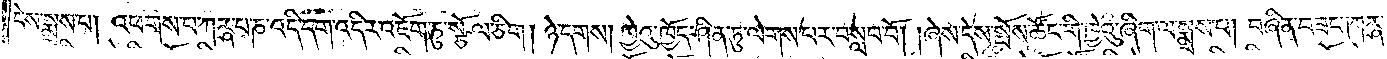དེས་སྨྲས་པ། འཕགས་པ་ཀཪྴ་པ་ཎ་འདི་དག་འདིར་འཇོག་ཏུ་སྩོལ་ཅིག། ཉེ་དགས། ཁྱེའུ་ཁྱོད་ཤིན་ཏུ་ལེགས་པར་བསླབ་བོ། །ཞེས་དེས་སྤོས་ཚོང་གི་ཁྱེའུ་ཞིག་ལ་སྨྲས་པ། བཞིན་བཟང༌། ཀཪྴ་
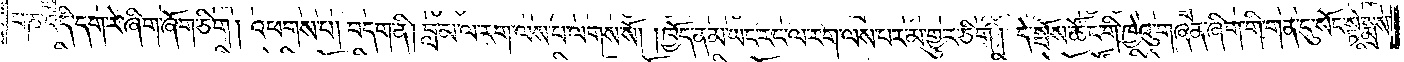པ་ཎ་འདི་དག་རེ་ཞིག་ཞོག་ཅིག། འཕགས་པ། བདག་ནི། བླ་མ་ལ་རག་ལས་པ་ལགས་སོ། །ཁྱོད་ནམ་ཡང་རང་ལ་རག་ལས་པར་མ་གྱུར་ཅིག། དེ་སྤོས་ཚོང་གི་ཁྱེའུ་གཞན་ཞིག་གི་གན་དུ་སོང་སྟེ་སྨྲས།
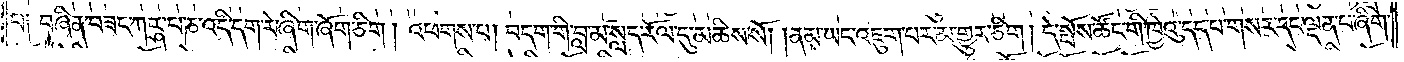པ༑ བཞིན་བཟང་ཀཪྴ་པ་ཎ་འདི་དག་རེ་ཞིག་ཞོག་ཅིག། འཕགས་པ། བདག་གི་བླ་མ་སླད་རོལ་དུ་མཆིས་སོ། །ནམ་ཡང་འཇུག་པར་མ་གྱུར་ཅིག། དེ་སྤོས་ཚོང་གི་ཁྱེའུ་དད་པ་གསར་དང་ལྡན་པ་ཞིག་
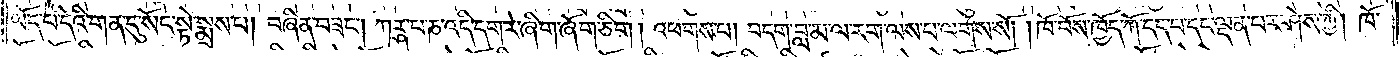ཡོད་པ་དེའི་གན་དུ་སོང་སྟེ་སྨྲས་པ། བཞིན་བཟང༌། ཀཪྴ་པ་ཎ་འདི་དག་རེ་ཞིག་ཞོག་ཅིག། འཕགས་པ། བདག་བླ་མ་ལ་རག་ལས་པ་ལགས་སོ། །ཁོ་བོས་ཁྱོད་ཀོ་དད་པ་དང་ལྡན་པར་ཤེས་ཀྱི། ཁོ་
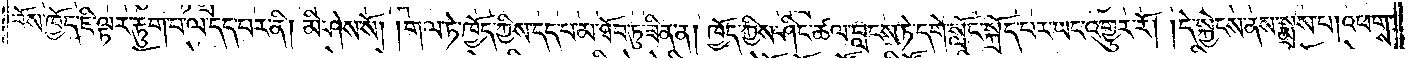བོས་ཁྱོད་ཇི་ལྟར་རྟུག་པ་ལ་དད་པར་ནི། མི་ཤེས་སོ། །གལ་ཏེ་ཁྱོད་ཀྱིས་དད་པ་མ་ཐོབ་ཏུ་ཟིན་ན། ཁྱོད་ཀྱིས་ཤིང་ཚལ་བླངས་ཏེ་དགེ་སློང་སྐྲོད་པར་ཡང་འགྱུར་རོ། །དེ་སྐྱེངས་ནས་སྨྲས་པ། འཕགས་
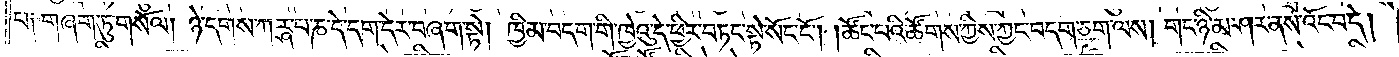པ༑ གཞག་ཏུ་གསོལ། ཉེ་དགས་ཀཪྴ་པ་ཎ་དེ་དག་དེར་བཞག་སྟེ། ཁྱིམ་བདག་གི་ཁྱེའུ་དེ་ཕྱིར་བཏང་སྟེ་སོང་ངོ༌། །ཚོང་པའི་ཚོགས་ཀྱིས་ཀྱང་བདག་ཅག་ལས། གང་ཉི་མ་ཤར་ནས་འོང་བ་དེ།
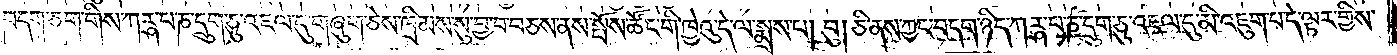བདག་ཅག་གིས་ཀཪྴ་པ་ཎ་དྲུག་ཅུ་འཇལ་དུ་གཞུག་ཅེས་ཁྲིམས་སུ་བྱ་བ་བཅས་ནས་སྤོས་ཚོང་གི་ཁྱེའུ་དེ་ལ་སྨྲས་པ། བུ། ཅི་ནས་ཀྱང་བདག་ཉིད་ཀཪྴ་པ་ཎ་དྲུག་ཅུ་འཇལ་དུ་མི་འཇུག་པ་དེ་ལྟར་གྱིས་
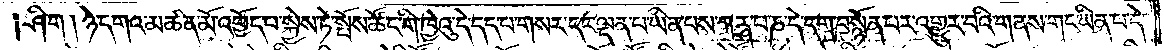ཤིག །ཉེ་དགའ་མཚན་མོ་འགྱོད་པ་སྐྱེས་ཏེ་སྤོས་ཚོང་གི་ཁྱེའུ་དེ་དད་པ་གསར་དང་ལྡན་པ་ཡིན་པས་ཀཪྴ་པ་ཎ་དེ་དག་བསྙོན་པར་འགྱུར་བའི་གནས་གང་ཡིན་པ་དེ་
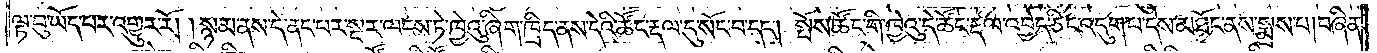ལྟ་བུ་ཡོད་པར་འགྱུར་རོ། །སྙམ་ནས་དེ་ནང་པར་སྔར་ལངས་ཏེ་ཁྱེའུ་ཞིག་ཁྲིད་ནས་དེའི་ཚོང་རྡལ་དུ་སོང་བ་དང༌། སྤོས་ཚོང་གི་ཁྱེའུ་དེ་ཚོང་རྡལ་འབྱེད་ཅིང་འདུག་པ་དེས་མཐོང་ནས་སྨྲས་པ། བཞིན་
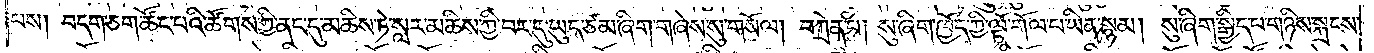པས། བདག་ཅག་ཚོང་པའི་ཚོགས་ཀྱི་ནང་དུ་མཆིས་ཏེ་སླར་མཆིས་ཀྱི་བར་དུ་ཡུད་ཙམ་ཞིག་གཞེས་སུ་གསོལ། བཀྲེན་པ། སུ་ཞིག་ཁྱོད་ཀྱི་ལྟོ་གོལ་བ་ཡིན་སྙམ། སུ་ཞིག་སྒྱིད་པ་གཉིས་སྐྲངས་
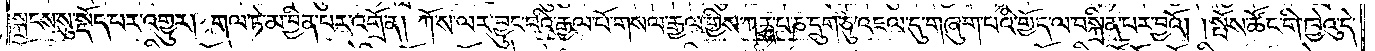སྐྲངས་སུ་སྡོད་པར་འགྱུར། གལ་ཏེ་མ་བྱིན་པར་འགྲོ་ན། ཀོ་ས་ལར་བྱུང་བའི་རྒྱལ་པོ་གསལ་རྒྱལ་གྱིས་ཀཪྴ་པ་ཎ་དྲུག་ཅུ་འཇལ་དུ་གཞུག་པའི་གྱོད་ལ་བསྐྲིན་པར་བྱའོ། །སྤོས་ཚོང་གི་ཁྱེའུ་དེ་
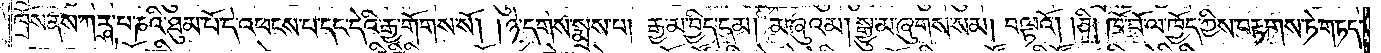ཁྲོས་ནས་ཀཪྴ་པ་ཎའི་ཐུམ་པོ་དེ་འཕངས་པ་དང་དེའི་རྒྱ་གོགས་སོ། །ཉེ་དགས་སྨྲས་པ། རྒྱ་མ་བྱིད་དམ། མ་ཞུའམ། སྒྱུ་མ་ཞུགས་སམ། བལྟའོ། །ཅི། ཁོ་བོ་ལ་ཁྱོད་ཀྱིས་བརྟགས་ཏེ་གཏད་
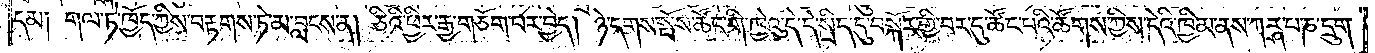དམ༏ གལ་ཏེ་ཁྱོད་ཀྱིས་བརྟགས་ཏེ་མ་བླངས་ན། ཅིའི་ཕྱིར་རྒྱ་གཅོག་པར་བྱེད། ཉེ་དགས་སྤོས་ཚོང་གི་ཁྱེའུ་དེ་དེ་སྲིད་དུ་བསྐོར་གྱི་བར་དུ་ཚོང་པའི་ཚོགས་ཀྱིས་དེའི་ཁྱིམ་ནས་ཀཪྴ་པ་ཎ་དྲུག་
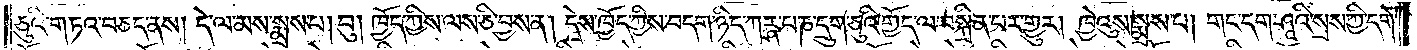ཅུའི་གཏའ་བཅད་ནས། དེ་ལ་མས་སྨྲས་པ། བུ། ཁྱོད་ཀྱིས་ལས་ཅི་བྱས་ན། དེས་ཁྱོད་ཀྱིས་བདག་ཉིད་ཀཪྴ་པ་ཎ་དྲུག་ཅུའི་གྱོད་ལ་བསྐྲིན་པར་གྱུར། ཁྱེའུས་སྨྲས་པ། གང་དག་ཤཱའི་སྲས་ཀྱི་དགེ་
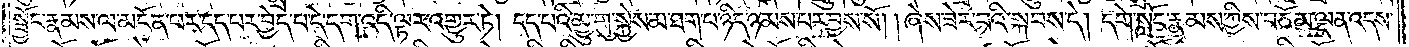སྦྱོང་རྣམས་ལ་མངོན་པར་དད་པར་བྱེད་པ་དེ་དག་འདི་ལྟར་འགྱུར་ཏེ། དད་པའི་མྱུ་གུ་སྐྱེས་མ་ཐག་པ་ཉིད་ཉམས་པར་བྱས་སོ། །ཞེས་ཟེར་བའི་སྐབས་དེ། དགེ་སློང་རྣམས་ཀྱིས་བཅོམ་ལྡན་འདས་
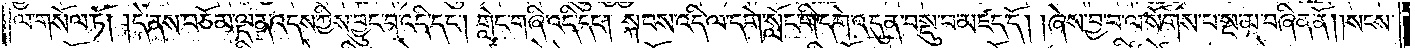ལ་གསོལ་ཏོ། །དེ་ནས་བཅོམ་ལྡན་འདས་ཀྱིས་བྱུང་བ་འདི་དང༌། གླེང་གཞི་འདི་དང༌། སྐབས་འདི་ལ་དགེ་སློང་གི་དགེ་འདུན་བསྡུ་བ་མཛད་དོ། །ཞེས་བྱ་བ་ལ་སོགས་པ་སྔ་མ་བཞིན་ནོ། །སངས་
